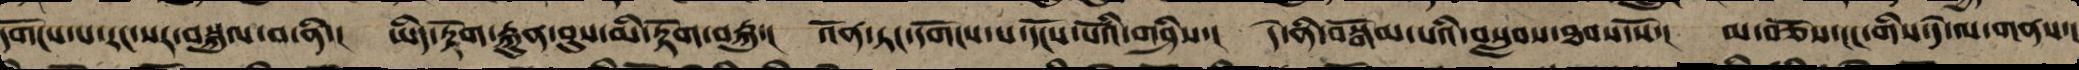དགོངས་པ་རང་སར་བསྐུལ་བ་ནི་། ཡིད་རྟོག་རྐུན་བུས་མི་རྟོག་བརྐུ་། འོན་ཏང་དགོངས་པ་དངོས་པོའི་གཤིས་། དེ་ནི་བསྒོམ་པའི་བསླབས་ཐབས་སོ་། མ་བཅོས་ངང་གིས་དེ་ལ་གནས་།
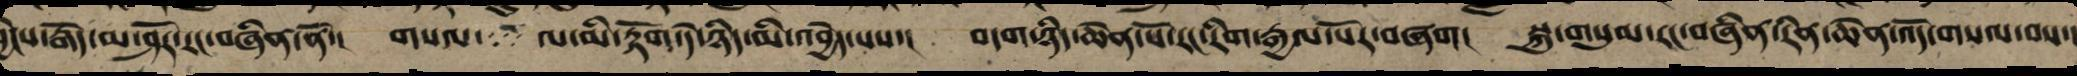བྱིངས་རྒོད་མ་ཤོར་རང་བཞིན་ནོ་། གསལ་ ལ་མི་རྟོག་དེ་ཉིད་མི་འབྱེད་པས་། བདག་ཉིད་ཆེན་པོ་རང་རིག་རྒྱལ་པོར་བཞག། སྐུ་གསུམ་རང་བཞིན་རིན་ཆེན་འོད་གསལ་བས་།
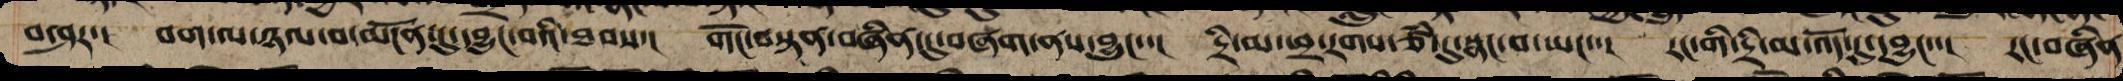བ་ཤར་། བག་ལ་ཉལ་བ་མངོན་དུ་དབྱུང་བའི་ཐབས་། གོང་བསྟན་བཞིན་དུ་བཞག་ནས་བྱུང་་། དྲི་མ་ཕྲ་རགས་ཙམ་དུ་སྣང་བ་ཡང་་། རང་གི་དྲི་མ་འོད་དུ་དབྱུང་་། རང་བཞིན
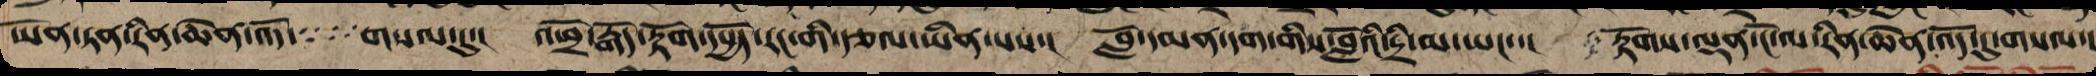ཡོན་ཏན་རིན་ཆེན་འོད་ གསལ་དུ་། འཕྲོ་རྒོད་རྟོག་དཔྱོད་རང་གི་རྩལ་ཡིན་པས་། བློ་དམན་དག་གི་བློའི་དྲི་མ་ཡང་་། རྟོགས་ལྡན་ངོ་ལ་རིན་ཆེན་འོད་དུ་གསལ་།
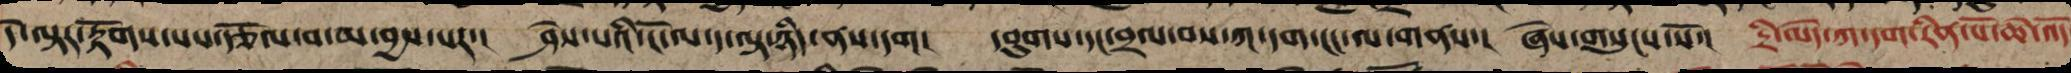དེ་ལྟར་རྟོགས་པས་རྩོལ་བ་མ་བྱས་པར་། ཤེས་པའི་ངོ་ལ་ད་ལྟ་ཉིད་ནས་དག། དབུགས་དང་བྲལ་ནས་ཀ་དག་ངང་ལ་གནས་། ཞེས་གསུངས་སོ་། དྲི་མེད་ཀ་དག་རིན་པོ་ཆེ་འོད
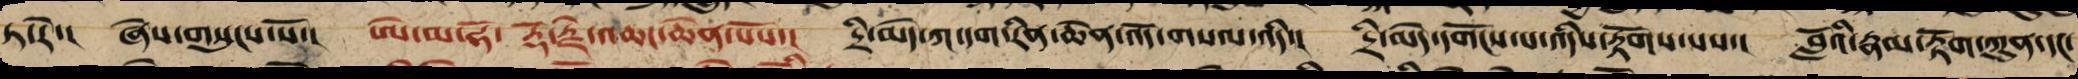ཏ་རེ་། ཞེས་གསུངས་སོ་། ཨེ་མ་ཧོ་ རྡོ་རྗེ་འཆང་ཆེན་པོས་། དྲི་མེད་ཀ་དག་རིན་ཆེན་འོད་གསལ་འདི་། དྲི་མེད་དགོངས་པ་འདིས་རྟོགས་པས་། བློའི་རྣམ་རྟོག་ཀུན་དང་
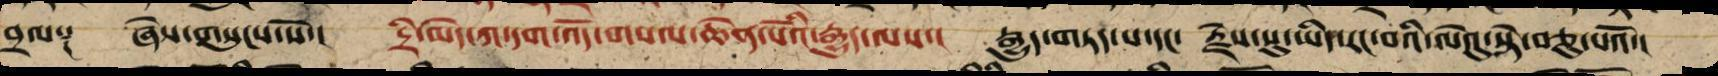བྲལ༑ ཞེས་གསུངས་སོ་། དྲི་མེད་ཀ་དག་འོད་གསལ་ཆེན་པོའི་རྒྱུད་ལས་། རྒྱུད་གཏད་པ་དང་ རྗེས་སུ་ཡིད་རང་བའི་ལེའུ་སྟེ་བཅུ་པའོ་།།
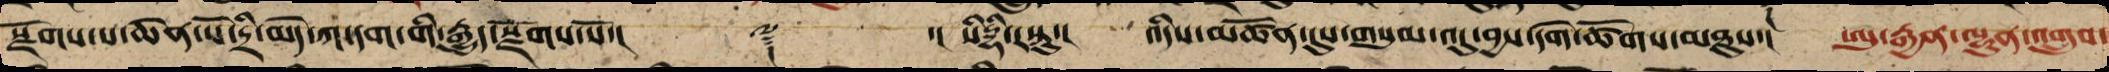སྫོགས་པ་ཆེན་པོ་དྲི་མེད་ཀ་དག་གི་རྒྱུད་སྫོགས་སོ་།། ༈ ་། སིདྡྷི་རསྟུ་། འདིས་མཚོན་དུས་གསུམ་འདུ་བྱས་དགེ་ཚོགས་མཐུས་། ཨུ་རྒྱན་ལྷུན་གྲུབ་
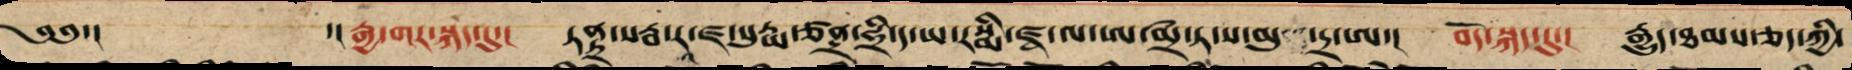༄༅་། ་། རྒྱ་གར་སྐད་དུ་། ཏནྟྲ་སརྦ་རཱ་ཛ་སུརྨ་ཙནྡྲ་ཧྲི་ད་ཡ་རསྨི་ཛྭ་ལ་ཨ་མྲྀ་ཏ་ས་མུ ་དྲ་ཨ་། བོད་སྐད་དུ་། རྒྱུད་ཐམས་ཅད་ཀྱི་
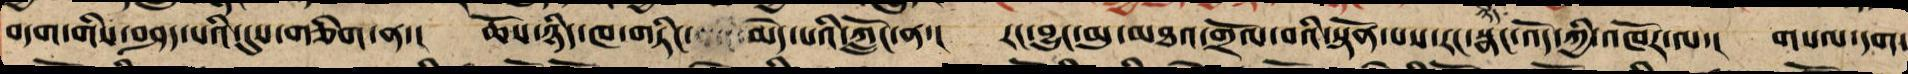བདག་གིས་བཤད་པའི་དུས་གཅིག་ན་།   ཆོས་ཉིད་ཁ་གཏིང་   མེད་པའི་ཀློང་ན་།   རང་བྱུང་མུ་མཐའ་གྲོལ་བའི་སྟོན་པས་རང་སྣང་འོད་ཀྱི་འཁོར་ལ་།   གསལ་དག་
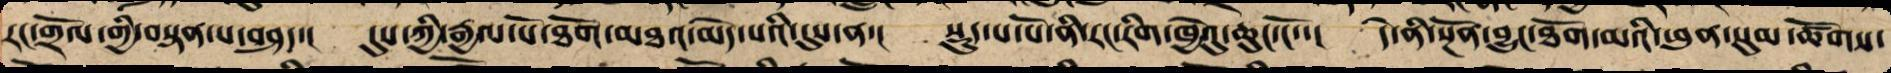རང་གྲོལ་གྱི་བསྟན་པ་བཤད་། དུས་ཀྱི་རྒྱལ་པོ་ཐོག་མཐའ་མེད་པའི་དུས་ན་། སྡུད་པ་པོ་ནི་རང་རིག་ཁྱེའུ་ཆུང་ངོ་་། དེ་ནི་སྔོན་བྱུང་ཐོག་མའི་ཕུན་སུམ་ཚོགས་
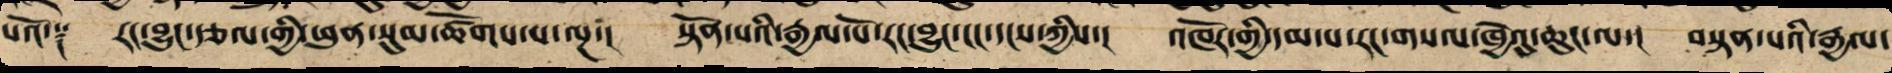པའོ་༑ རང་བྱུང་རྩལ་གྱི་ཕུན་སུམ་ཚོགས་པ་ལྔ་། སྟོན་པའི་རྒྱལ་པོ་རང་བྱུང་ངང་དངས་ཀྱིས་། འཁོར་གྱི་དམ་པ་རང་གསལ་ཁྱེའུ་ཆུང་ལ་། བསྟན་པའི་རྒྱལ་
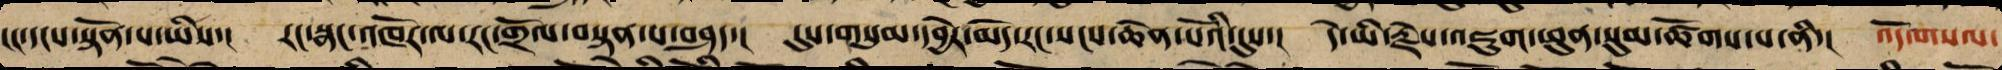ངང་དངས་སྟོན་པ་ཡིས་། རང་སྣང་འཁོར་ལ་རང་གྲོལ་བསྟན་པ་བཤད་། དུས་གསུམ་དབྱེར་མེད་རང་སངས་ཆེན་པོའི་དུས་། དེ་ཡི་རྗེས་འཇུག་ཕུན་སུམ་ཚོགས་པ་ནི་། འོད་གསལ་
